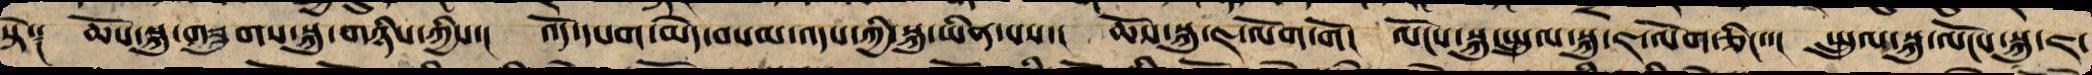སྟེ་༑ ཆོས་སྐུ་གཟུགས་སྐུ་གཉིས་ཀྱིས་། འོད་དཔག་མེད་བསམ་འདས་ཀྱི་སྐུ་ཡིན་པས་། ཆོས་སྐུ་ཇ་ལོག་གོ། ལོངས་སྐུ་སྤྲུལ་སྐུ་ཇ་ལོག་ཅིང་་། སྤྲུལ་སྐུ་ལོངས་སྐུ་ཇ་
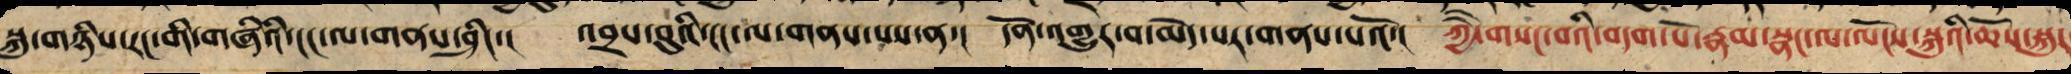སྐུ་གཉིས་རང་གི་གཞིའི་ངང་ལ་གནས་ཤིང་། འབྲས་བུའི་ངང་ལ་གནས་པས་ན་། དོན་འགྱུར་བ་མེད་པར་གནས་སོ་། ཀྱཻ་གསང་བའི་བདག་པོ་རྣམ་སྣང་ལ་ལོངས་སྐུའི་ཆོས་སྐུར
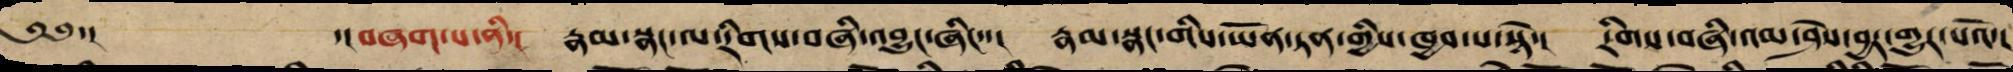༄༅་།    ་།བཞག་པ་ནི་། རྣམ་སྣང་ལ་རིགས་བཞི་འབྱུང་ཞིང་་། རྣམ་སྣང་གིས་ཡོན་ཏན་གྱིས་ཁྱབ་པ་སྟེ་། རིགས་བཞི་འམ་ཤེས་བྱར་གྱུར་པའོ་།
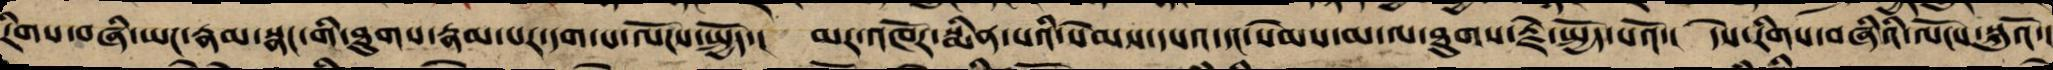རིགས་བཞི་ཡང་རྣམ་སྣང་གི་ཐུགས་རྣམ་པར་དག་པ་ལ་ལོངས་སྤྱོད་། མར་འཁོར་སྨིན་པས་སེམས་དཔའ་དང་སེམས་མ་ལ་ཐུགས་རྗེ་སྤྱོད་པའོ་། དེས་ན་རིགས་བཞི་ལོངས་སྐུའོ་།
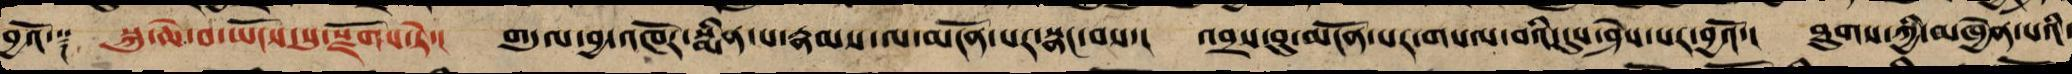བྱའོ་༑ སྐུ་ཆེ་བ་ཡོངས་སུ་སྫོགས་ཏེ་། གདུལ་བྱ་འཁོར་སྨིན་པ་རྣམས་ལ་མངོན་པར་སྣང་བས་། འབྲས་བུ་མངོན་པར་གསལ་བའི་དུས་ཤེས་པར་བྱའོ་། ཐུགས་ཀྱི་མཁྱེན་པའི་
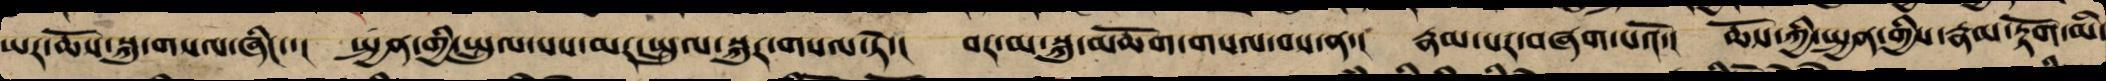ཡར་ཆོས་སྐུར་གསལ་ཞིང་། སྤྱན་གྱི་སྤྲུལ་པས་མར་སྤྲུལ་སྐུར་གསལ་ཏེ་། བར་ན་སྐུ་མཆོག་གསལ་བས་ན་། རྣམ་པར་བཞག་པའོ་། ཆོས་ཀྱི་སྤྱན་གྱིས་རྣམ་རྟོག་མི་
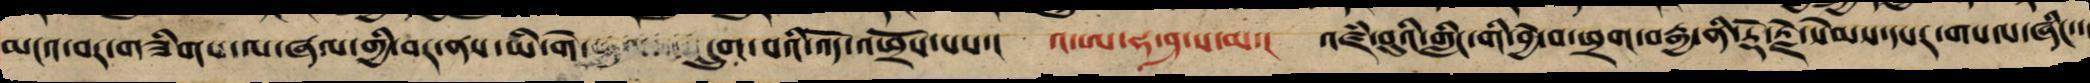མངའ་བར་གཟིགས་ལ་ཞལ་གྱི་བར་ནས་ཡི་གེ་    དྲུག་པའི་འོད་་འཕྲོས་པས་། འ་ཨ་ཧ་ཤ་ས་མ་། འཛམ་བུའི་གླིང་བྱེ་བ་ཕྲག་བརྒྱ་ནི་རྡོ་རྗེ་སེམས་དཔར་གསལ་ཞིང་་
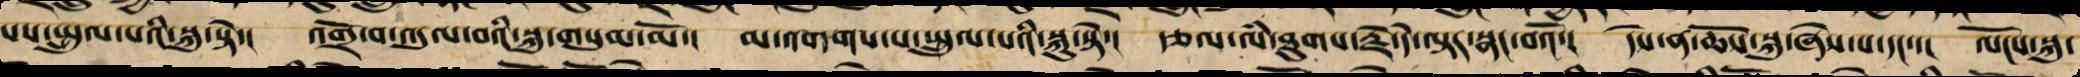པས་སྤྲུལ་པའི་སྐུ་སྟེ་། འགྲོ་བ་འདུལ་བའི་སྐུ་གསུམ་མོ་། མ་འགགས་པ་སྤྲུལ་པའི་སྐུ་སྟེ་། རྩལ་ལཾ་ཐུགས་རྗེ་དེ་ལྟར་སྣང་བའོ་། དེས་ན་ཆོས་སྐུ་ཞེས་པ་དང་་། ལོངས་སྐུ་
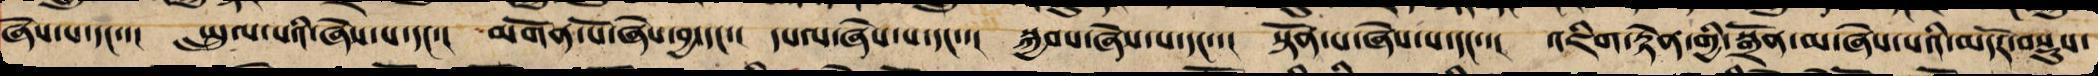ཞེས་པ་དང་་། ཐུགས་རྗེ་ཞེས་པ་དང་། སྤྲུལ་པའི་སྐུ་ཞེས་པ་དང་། མགོན་པོ་ཞེས་པ་དང་། དཔལ་ཞེས་པ་དང་། སྐྱབས་ཞེས་པ་དང་། སྟོན་པ་ཞེས་པ་དང་། འཇིག་རྟེན་གྱི་སྒྲོན་མ་ཞེས་པ་མདོར་བསྡུས་
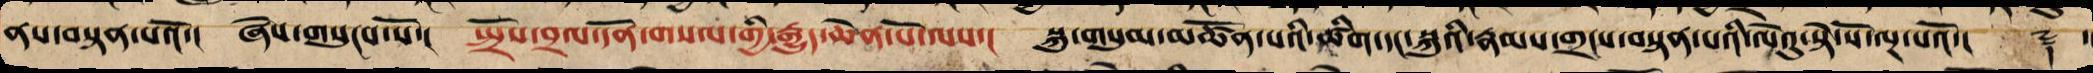ནས་བསྟནཔའོ་། ཞེས་གསུངས་སོ་། སྤྲོས་བྲལ་དོན་གསལ་གྱི་རྒྱུད་ཆེན་པོ་ལས་། སྐུ་གསུམ་མཚོན་པའི་ཚིག་དང་སྐུའི་རྣམ་གྲངས་བསྟན་པའི་ལེའུ་སྟེ་སོ་ལྔ་པའོ་།། ༈ ་།།
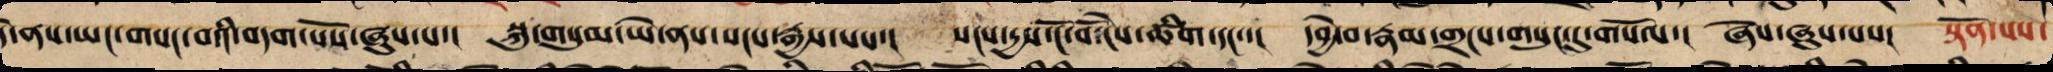དེ་ནས་ཡང་གསང་བའི་བདག་པོས་ཞུས་པ་། སྐུ་གསུམ་ཡེ་ནས་སངས་རྒྱས་པས་། སངས་དྱས་ངོ་བོ་ངེས་ཚིག་དང་་། དབྱེ་བ་རྣམ་གྲངས་གསུང་དུ་གསོལ་། ཞེས་ཞུས་པས་། སྟོན་པས་
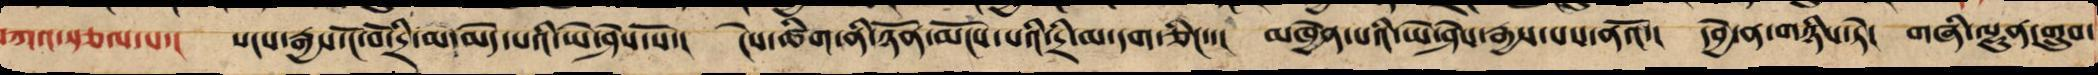བཀའ་སྩལ་པ་། སངས་རྒྱས་ཀྱི་ངོ་བོ་དྲི་མ་མེད་པའི་ཡེ་ཤེས་སོ་། ངེས་ཚིག་ནི་ཉོན་མོངས་པའི་དྲི་མ་དག་ཅིང་་། མཁྱེན་པའི་ཡེ་ཤེས་རྒྱས་པས་ནའོ་། དབྱེ་ན་གཉིས་ཏེ། གཞི་ལྷུན་གྲུབ་
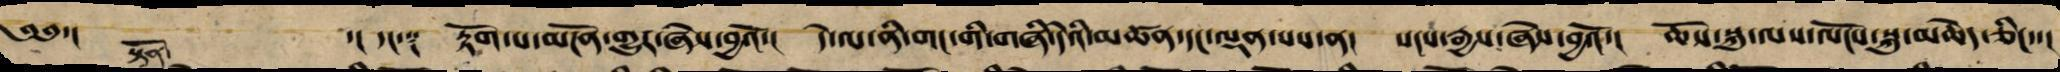༄༅་། ་། དང༑ རྟོགས་པ་མངོན་གྱུར་ཞེས་བྱའོ་། དེ་ལ་ནི་གོང་གི་གཞི་དེའི་མཚན་དང་ལྡན་པས་ན། སངས་རྒྱས་ཞེས་བྱའོ་། ཆོས་སྐུ་ལས་ལོངས་སྐུ་མཆེད་ཅིང་་།
